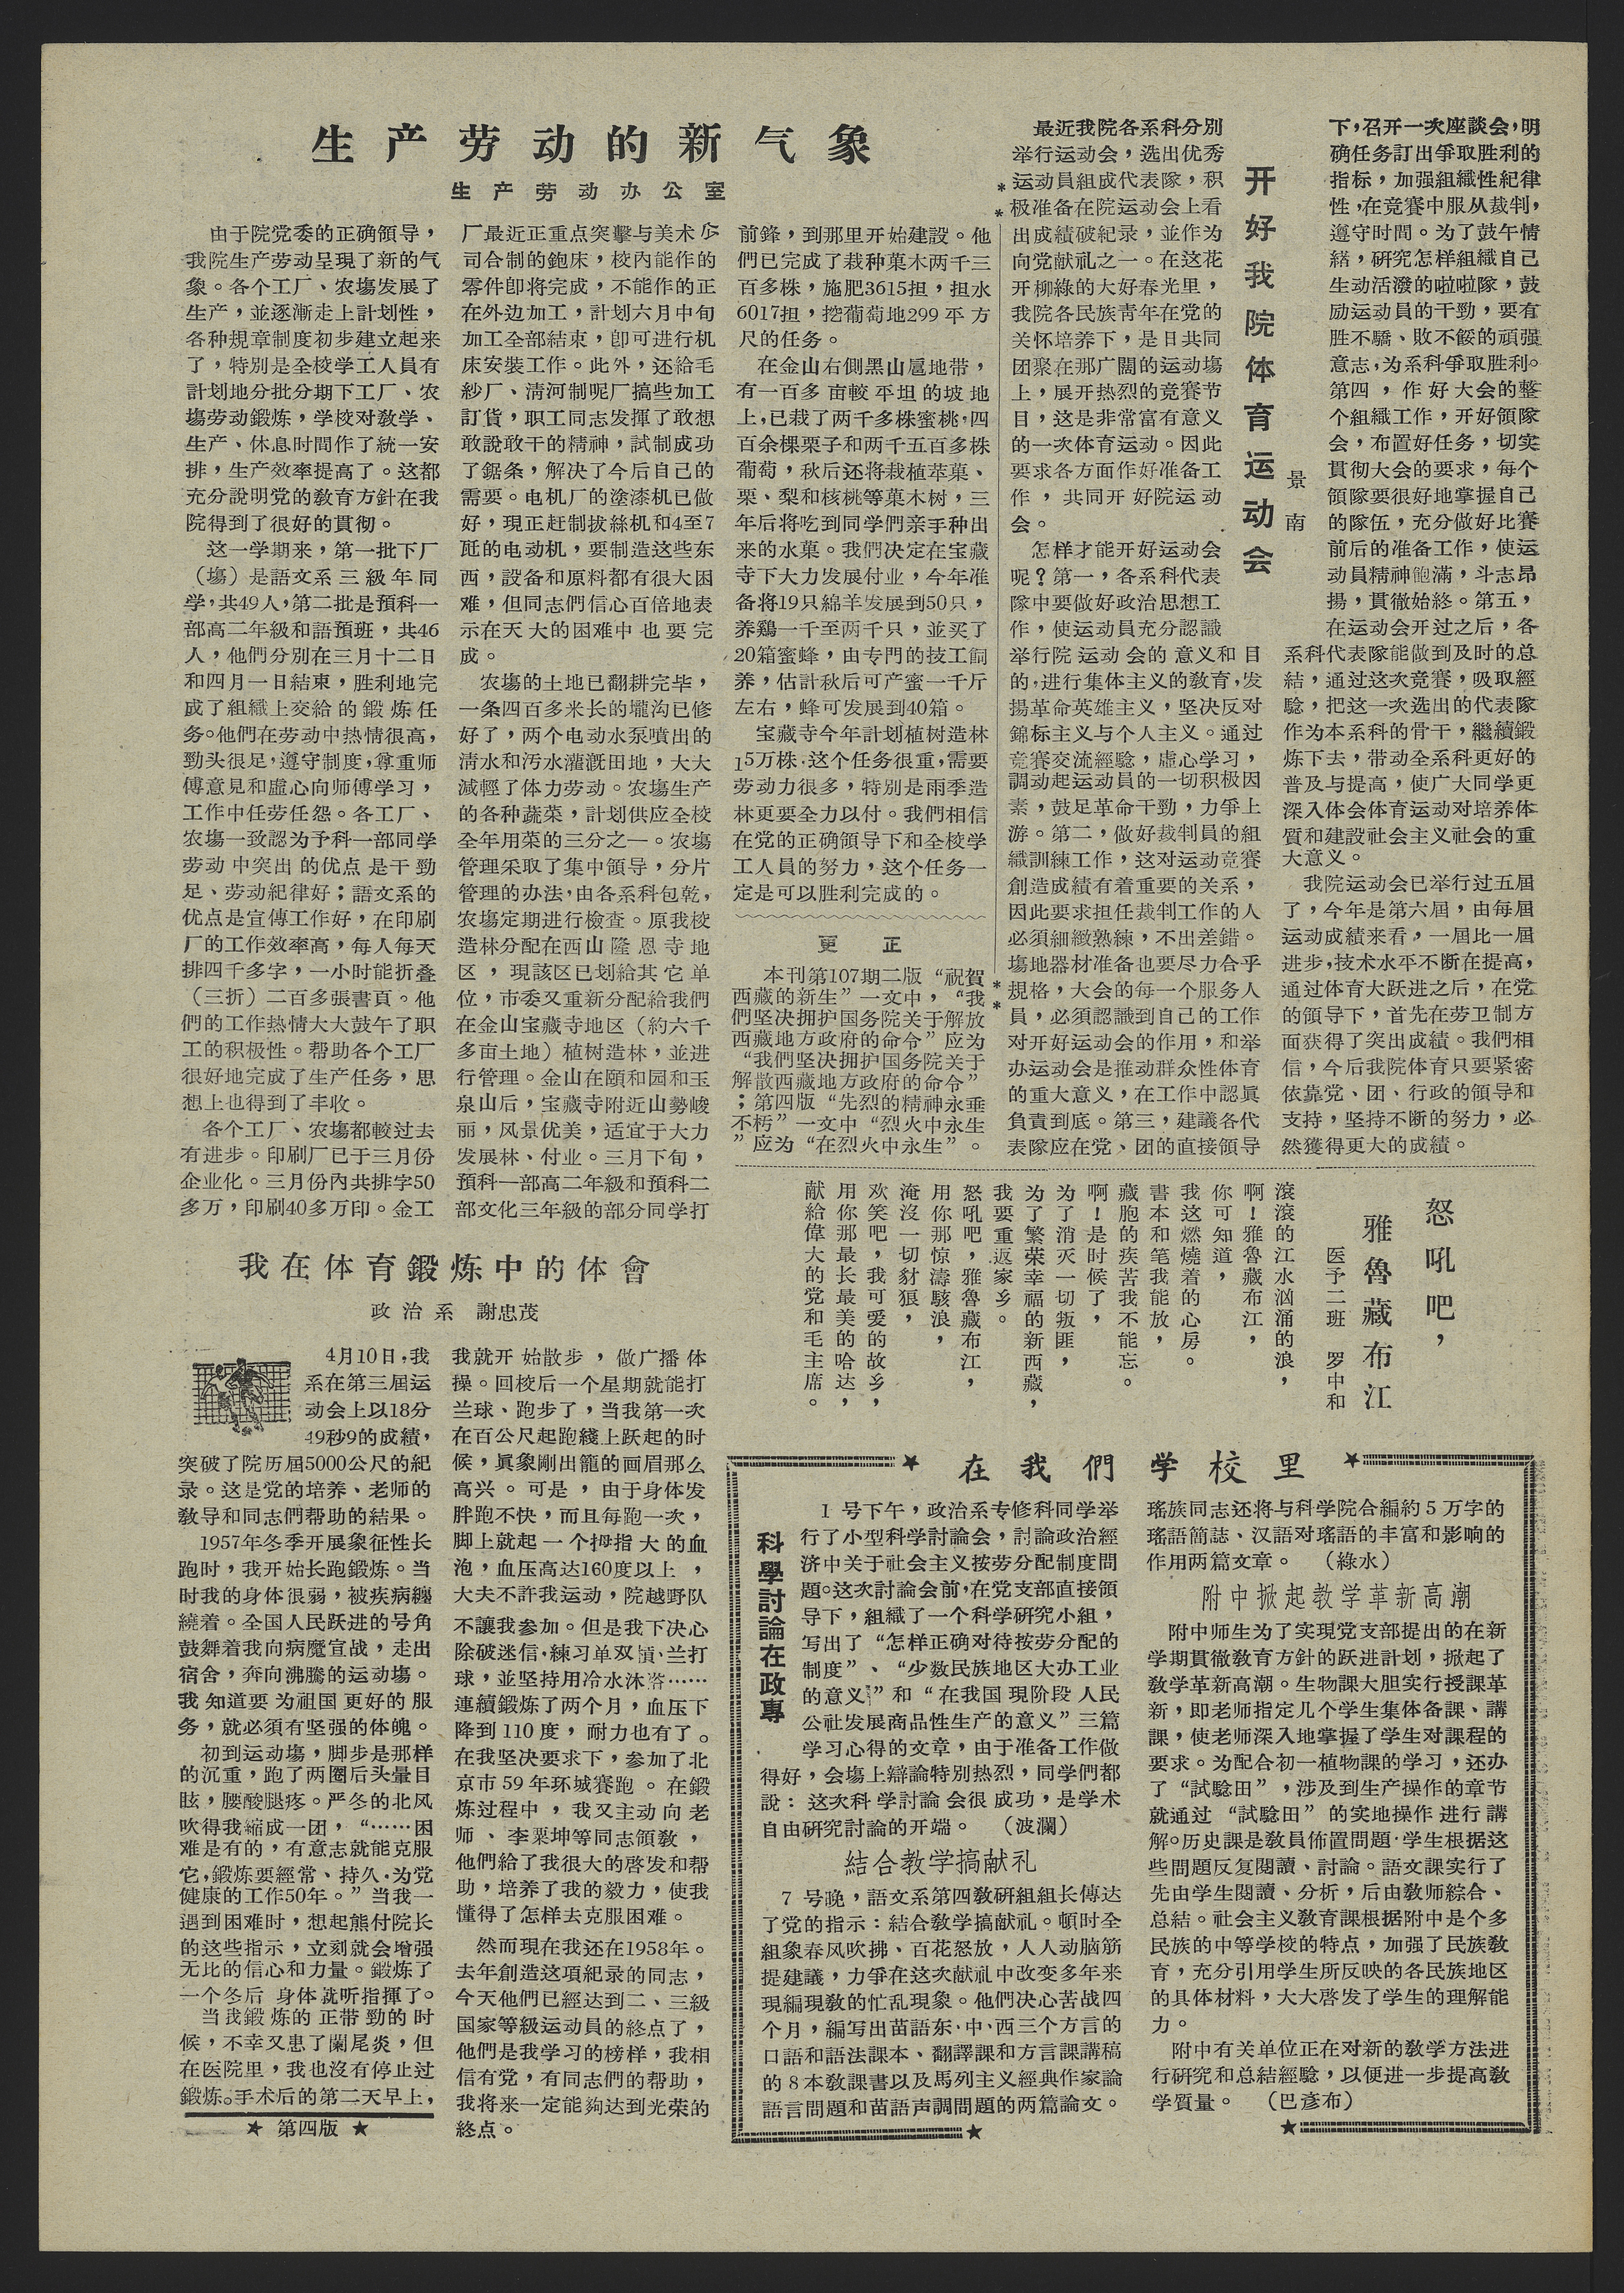生 产 劳 动 的 新 气 象
生产劳动办公室
由于院党委的正确領导，
我院生产劳动呈現了新的气
象。各个工厂、农塲发展了
生产，並逐漸走上計划性，
各种規章制度初步建立起来
了，特别是全校学工人員有
計划地分批分期下工厂、农
塲劳动鍛炼，学校对敎学、
生产、休息时間作了統一安
排，生产效率提高了。这都
充分說明党的敎育方針在我
院得到了很好的貫彻。
这一学期来，第一批下厂
（塲）是語文系三級年同
学，共49人，第二批是預科一
部高二年級和語預班，共46
人，他們分别在三月十二日
和四月一日結束，胜利地完
成了組織上交給的鍛炼任
务。他們在劳动中热情很高，
勁头很足，遵守制度，尊重师
傅意見和虛心向师傅学习，
工作中任劳任怨。各工厂、
农塲一致認为予科一部同学
劳动中突出的优点是干勁
足、劳动紀律好；語文系的
优点是宣傳工作好，在印刷
厂的工作效率高，每人每天
排四千多字，一小时能折叠
（三折）二百多張書頁。他
們的工作热情大大鼓午了职
工的积极性。帮助各个工厂
很好地完成了生产任务，思
想上也得到了丰收。
各个工厂、农塲都較过去
有进步。印刷厂已于三月份
企业化。三月份内共排字50
多万，印刷40多万印。金工
厂最近正重点突擊与美术公
司合制的鉋床，校内能作的
零件卽将完成，不能作的正
在外边加工，計划六月中旬
加工全部結束，卽可进行机
床安装工作。此外，还給毛
紗厂、清河制呢厂搞些加工
訂貨，职工同志发揮了敢想
敢說敢干的精神，試制成功
了鋸条，解决了今后自己的
需要。电机厂的涂漆机已做
好，現在赶制拔絲机和4至7
瓩的电动机，要制造这些东
西，設备和原料都有很大困
难，但同志們信心百倍地表
示在天大的困难中也要完
成。
农塲的土地已翻耕完毕，
一条四百多米长的壠沟已修
好了，两个电动水泵噴出的
清水和污水灌溉田地，大大
減輕了体力劳动。农塲生产
的各种蔬菜，計划供应全校
全年用菜的三分之一。农塲
管理采取了集中領导，分片
管理的办法，由各系科包幹，
农塲定期进行檢查。原我校
造林分配在西山隆恩寺地
区，現該区已划給其他单
位，市委又重新分配給我們
在金山宝藏寺地区（約六千
多亩土地）植树造林，並进
行管理。金山在頤和园和玉
泉山后，宝藏寺附近山勢峻
丽，风景优美，适宜于大力
发展林、付业。三月下旬，
預科一部高二年級和預科二
部文化三年級的部分同学打
前鋒，到那里开始建設。他
們已完成了栽种菓木两千三
百多株，施肥3615担，担水
6017担，挖葡萄地299平方
尺的任务。
在金山右側黑山扈地帶，
有一百多亩較平坦的坡地
上，已栽了两千多株蜜桃，四
百余棵栗子和两千五百多株
葡萄，秋后还将栽植苹菓、
栗、梨和核桃等菓木树，三
年后将吃到同学們亲手种出
来的水菓。我們决定在宝藏
寺下大力发展付业，今年准
备将19只綿羊发展难道50只，
养鷄一千至两千只，並买了
20箱蜜蜂，由专門的技工飼
养，估計秋后可产蜜一千斤
左右，蜂可发展到40箱。
宝藏寺今年計划植树造林
15万株，这个任务很重，需要
劳动力很多，特别是雨季造
林更要全力以付。我們相信
在党的正确領导下和全校学
工人員的努力，这个任务一
定是可以胜利完成的。
更 正
本刊第107期二版“祝賀
西藏的新生”一文中，“我
們坚决拥护国务院关于解放
西藏地方政府的命令”应为
“我們坚决拥护国务院关于
解散西藏地方政府的命令”
；第四版“先烈的精神永垂
不朽”一文中“烈火中永生
”应为“在烈火中永生”。
开好我院体育运动会
景南
最近我院各系科分别
举行运动会，选出优秀
运动員組成代表隊，积
极准备在院运动会上看
出成績破紀录，並作为
向党献礼之一。在这花
开柳綠的打好春光里，
我院各民族靑年在党的
关怀培养下，是日共同
团聚在那广闊的运动塲
上，展开热烈的竞賽节
目，这是非常富有意义
的一次体育运动。因此
要求各方面做好准备工
作，共同开好院运动
会。
怎样才能开好运动会
呢？第一，各系科代表
隊中要做好政治思想工
作，使运动員充分認識
举行院运动会的意义和目
的，进行集体主义的敎育，发
揚革命英雄主义，坚决反对
錦标主义和个人主义。通过
竞賽交流經騐，虛心学习，
調动起运动員的一切积极因
素，鼓足革命干勁，力爭上
游。第二，做好裁判員的組
織訓練工作，这对运动竞賽
創造成績有着重要的关系，
因此要求担任裁判工作的人
必須細緻熟練，不出差錯。
塲地器材准备也要尽力合乎
規格，大会的每一个服务人
員，必須認識到自己的工作
对开好运动会的作用，和举
办运动会是推动群众性体育
的重大意义，在工作中認眞
負責到底。第三，建議各代
表隊应在党、团的直接領导
下，召开一次座談会，明
确任务訂出爭取胜利的
指标，加强組織性紀律
性，在竞賽中服从裁判，
遵守时間。为了鼓午情
緒，研究怎样組織自己
生动活潑的啦啦隊，鼓
励运动員的干勁，要有
胜不驕、敗不餒的頑强
意志，为系科爭取胜利。
第四，做好大会的整
个組織工作，开好領隊
会，布置好任务，切实
貫彻大会党要求，每个
領隊要很好地掌握自己
的隊伍，充分做好比賽
前后的准备工作，使运
动員精神飽滿，斗志昂
揚，貫徹始終。第五，
在运动会开过之后，各
系科代表隊能做到及时的总
結，通过这次竞賽，吸取經
騐，把这一次选出的代表隊
作为本系科的骨干，繼續鍛
炼下去，带动全系科更好的
普及与提高，使广大同学更
深入体会体育运动对培养体
質和建設社会主义社会的重
大意义。
我院运动会已举行过五屆
了，今年是第六屆，由每屆
运动成績来看，一屆比一屆
进步，技术水平不断在提高，
通过体育大跃进之后，在党
的領导下，首先在劳卫制方
面获得了突出成績。我們相
信，今后我院体育只要紧密
依靠党、团、行政的領导和
支持，坚持不断的努力，必
然獲得更大的成績。
我在体育鍛炼中的体會
政治系 謝忠茂
4月10日，我
系在第三屆运
动会上以18分
19秒9的成績，
突破了院历屆5000公尺的紀
录。这是党的培养、老师的
敎导和同志們帮助的結果。
1957年冬季开展象征性长
跑时，我开始长跑鍛炼。当
时我的身体很弱，被疾病纏
繞着。全国人民跃进的号角
鼓舞着我向病魔宣战，走出
宿舍，奔向沸騰的运动塲。
我知道要为祖国更好的服
务，就必須有坚强的体魄。
初到运动塲，脚步是那样
的沉重，跑了两圈后头暈目
眩，腰酸腿疼。严冬的北风
吹得我縮成一团，“……困
难是有的，有意志就能克服
它，鍛炼要經常、持久，为党
健康的工作50年。”当我一
遇到困难时，想起熊付院长
的这些指示，立刻就会增强
五比的信心和力量。鍛炼了
一个冬后身体就听指揮了。
当我鍛炼的正带勁的时
候，不幸又患了闌尾炎，但
在医院里，我也沒有停止过
鍛炼。手术后的第二天早上，
我就开始散布，做广播体
操。回校后一个星期就能打
兰球、跑步了，当我第一次
在百公尺起跑綫上跃起的时
候，眞象剛出籠的画眉那么
高兴。可是，由于身体发
胖跑不快，而且每跑一次，
脚上就起一个拇指大的血
泡，血压高达160度以上，
大夫不許我运动，院越野队
不讓我参加。但是我下决心
除破迷信，練习单双槓、兰打
球，並坚持用冷水沐浴……
連續鍛炼了两个月，血压下
降到110度，耐力也有了。
在我坚决要求下，参加了北
京市59年环城賽跑。在鍛
炼过程中，我又主动向老
师、李粟坤等同志領敎，
他們給了我很大的啓发和帮
助，培养了我的毅力，使我
懂得了怎样去克服困难。
然而現在我还在1958年。
去年創造这項紀录的同志，
今天他們已經达到二、三級
国家等級运动員的終点了，
他們是我学习的榜样，我相
信有党，有同志們的帮助，
我将来一定能夠达到光荣的
終点。
★ 第四版 ★
怒吼吧，
雅魯藏布江
医予二班 罗中和
滾滾的江水汹涌的浪，
啊！雅魯藏布江，
你可知道，
我这燃燒着的心房。
書本和笔我能放，
藏胞的疾苦我不能忘。
啊！是时候了，
为了消灭一切叛匪，
为了繁荣幸福的新西藏，
我要重返家乡。
怒吼吧，雅魯藏布江，
用你那惊濤駭浪，
淹沒一切豺狼，
欢笑吧，我可爱的故乡，
用你那最长最美的哈达，
献給偉大的党和毛主席。
★ 在 我 們 学 校 里 ★
科學討論在政專
1号下午，政治系专修科同学举
行了小型科学討論会，討論政治經
济中关于社会主义按劳分配制度問
題。这次討論会前，在党支部直接領
导下，組織了一个科学研究小組，
写出了“怎样正确对待按劳分配的
制度”、“少数民族地区大办工业
的意义”和“在我国現阶段人民
公社发展商品性生产的意义”三篇
学习心得的文章，由于准备工作做
得好，会塲上辯論特別热烈，同学們都
說：这次科学討論会很成功，是学术
自由研究討論的开端。
（波瀾）
結合教学搞献礼
7号晚，語文系第四敎研組組长傳达
了党的指示：結合敎学搞献礼。頓时全
組象春风吹拂、百花怒放，人人动脑筋
提建議，力爭在这次献礼中改变多年来
現編現敎的忙乱現象。他們决心苦战四
个月，編写出苗語东、中、西三个方言的
口語和語法課本、翻譯課和方言課講稿
的8本敎課書以及馬列主义經典作家論
語言問題和苗語声調問題的两篇論文。
瑤族同志还将与科学院合編約5万字的
瑤語簡誌、汉語对瑤語的丰富和影响的
作用两篇文章。
（綠水）
附中掀起教学革新高潮
附中师生为了实現党支部提出的在新
学期貫徹敎育方針的跃进計划，掀起了
敎学革新高潮。生物課大胆实行授課革
新，即老师指定几个学生集体备課、講
課，使老师深入地掌握了学生对課程的
要求。为配合初一植物課的学习，还办
了“試騐田”，涉及到生产操作的章节
就通过“試騐田”的实地操作进行講
解。历史課是敎員佈置問題，学生根据这
些問題反复閱讀、討論。語文課实行了
先由学生閱讀、分析，后由敎师綜合、
总結。社会主义敎育課根据附中是个多
民族的中等学校的特点，加强了民族敎
育，充分引用学生所反映的各民族地区
的具体材料，大大啓发了学生的理解能
力。
附中有关单位正在对新的敎学方法进
行研究和总結經騐，以便进一步提高敎
学質量。
（巴彥布）
